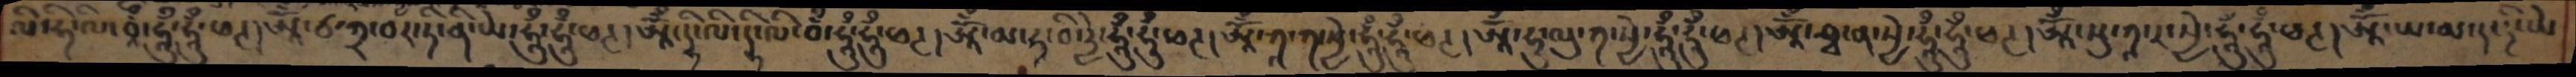ལི་ཧི་ལི་བཱྃ་ཧཱུྃ་ཧཱུྃ་ཕཊ། ཨཱོཾ་ཙ་ཀྲ་བར་ཏི་ནི་ཡེ་ཧཱུྃ་ཧཱུྃ་ཕཊ།ཨཱོཾ་དྷི་ལི་དྷི་ལི་བྃ་ཧཱུྃ་ཧཱུྃ་ཕཊ།ཨཱོྃ་མ་ཧཱ་བི་རྱེ་ཧཱུྃ་ཧཱུྃ་ཕཊ།ཨཱོྃ་ཀཱ་ཀ་སྱེ་ཧཱུྃ་ཧཱུྃ་ཕཊ། ཨཱོཾ་ཧུ་ལུ་ཀ་སྱེ་ཧཱུྃ་ཧཱུྃ་ཕཊ།ཨཱོཾ་ཤྭ་ན་སྱེ་ཧཱུྃ་ཧཱུྃ་ཕཊ།ཨཱོཾ་སུ་ཀཱ་ར་སྱེ་ཧཱུྃ་ཧཱུྃ་ཕཊ།ཨཱོྃ་ཡ་མ་ད་ཌི་ཡེ
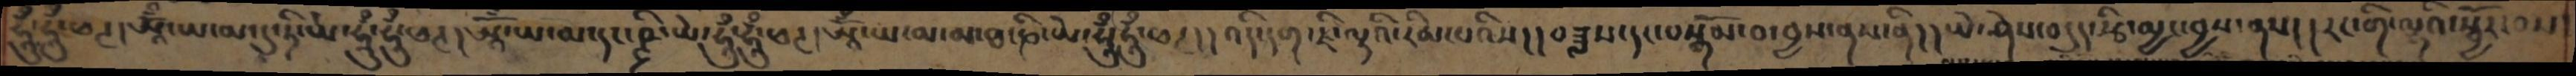ཧཱུྃ་ཧཱུྃ་ཕཊ།ཨཱོྃ་ཡ་མ་དུ་ཏི་ཡེ་ཧཱུྃ་ཧཱུྃ་ཕཊ།ཨཱོྃ་ཡ་མ་དང་ཥྚྲི་ཡེ་ཧཱུྃ་ཧཱུཾ་ཕཊ།ཨཱོྃ་ཡ་མ་མ་ཐ་ཎི་ཡེ་ཧཱུྃ་ཧཱུྃ་ཕཊ།།འདི་དག་ཇི་ལྟའི་རིམ་པའིས།།བཟླས་དང་བསྒོམ་བ་བྱས་ནས་ནི།།ཡེ་ཤེས་བདུད་རྩི་མྱང་བྱས་ནས།རང་གི་ལྷའི་སྦྱོར་བས་
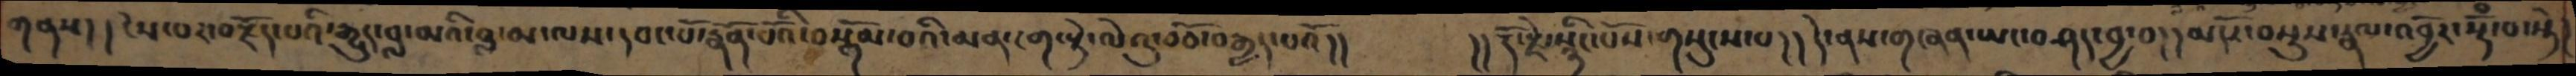གནས། ངེས་པར་བརྗོད་པའི་རྒྱུད་བླ་མའི་བླ་མ་ལས་དབང་པོ་རྣོན་པོའི་བསྒོམ་བའི་མན་ངག་སྟེ་ལེའུ་བཅོ་བརྒྱད་པའོ།།       །། རྡོ་རྗེ་སྙིང་པོས་གསུངས་པ་།། དེ་ནས་གཞན་ཡང་བཤད་བྱ་བ།།མདོར་བསྡུས་རྣམ་འབྱོར་སྡོཾ་བ་སྟེ
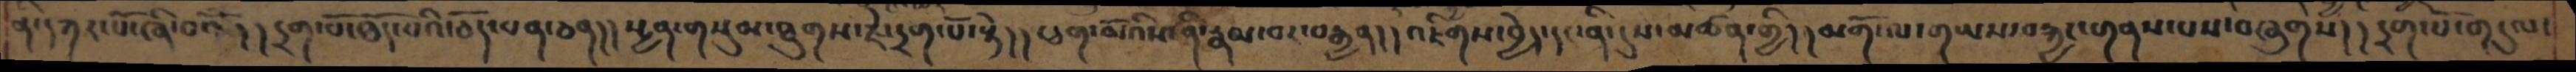ནི་དཀར་པོ་ཞི་བའོ། །དྲག་པོ་ཐོད་པའི་ཅོད་པན་ཅན། ། སྤྱན་གསུམ་ཐུགས་རྗེ་དྲག་པོ་སྟེ། །ཕག་མོའིས་ནི་རྣམ་པར་བརྒྱན། །འཇིགས་བྱེད་དང་ནི་དུས་མཚན་གྱི། །མགོ་ལ་གཡས་བརྐྱང་གནས་པས་བཞུགས། །དྲག་པོ་གདུལ་
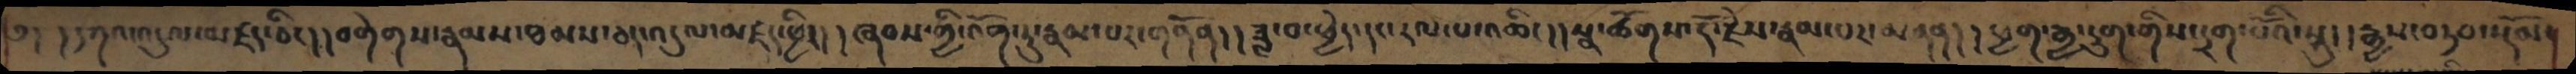༅། །དཀའ་འདུལ་མཛད་ཅིང།། བགེགས་རྣམས་ཐམས་ཅད་འདུལ་མཛད་ཕྱིར། །ཞབས་ཀྱི་འགོ་རུ་རྣམ་པར་གནོན། །ཟླ་བ་ཕྱེད་དང་རལ་པ་འཆིང། །སྣ་ཚོགས་རྡོ་རྗེས་རྣམ་པར་མནན། །ཕྱག་རྒྱ་དྲུག་གིས་དྲག་པོའི་སྐུ། །རྒྱས་བཏབ་རོལ་
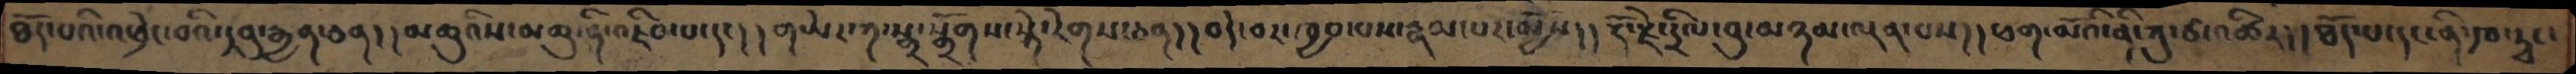ཐོད་པའི་འཕྲེང་བའི་དབུ་རྒྱན་ཅན། །མཆུའིས་མཆུ་ནི་འཇིབ་པ་དང། །གཡེར་ཀ་སྒྲ་སྒྲོགས་སྟེ་རེགས་ཅན། །བདེ་བར་ཁྱབ་པས་རྣམ་པར་མྱོས། །རྡོ་རྗེ་དྲིལ་བུ་མཉམ་ལྡན་པས། །ཕག་མོའི་ནི་ཀུ་ཙ་འཚིར། །ཐོད་པ་དང་ནི་ཁ་ཊྭང་
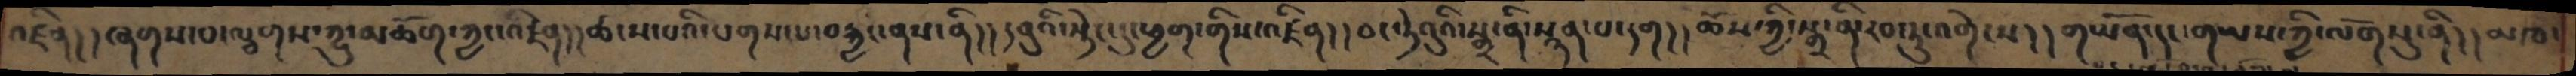འཛིན། །ཞགས་པ་ལྕགས་ཀྱུ་མཆོག་ཀྱང་འཛིན། །ཚངས་པའི་པགས་པ་བརྐྱང་ནས་ནི། །དབུའི་སྟེང་དུ་ཕྱག་གིས་འཛིན། །དབང་ཏེའུའི་སྒྲ་ནི་སྙན་པ་དག། །ཆོས་ཀྱི་སྒྲ་ནི་རབ་ཏུ་འགེངས། །གཡོན་དང་གཡས་ཀྱི་ལོག་དུ་ནི། །མཁ
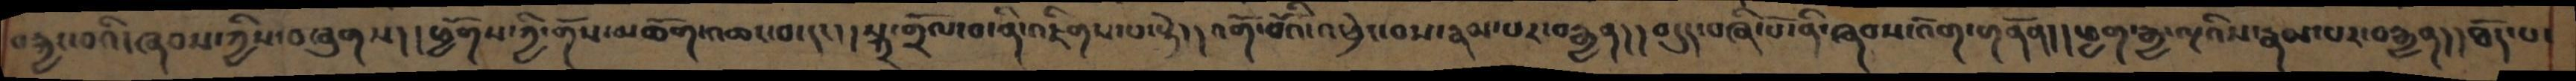བརྐྱང་བའི་ཞབས་ཀྱིས་བཞུགས།། ཕྱོགས་ཀྱི་གོས་མཆོག་འཆང་བ་དང་། སྐྲ་གྲོལ་བ་ནི་འཇིགས་པ་སྟེ་། །འགོ་བོའི་འཕྲེང་བས་རྣམ་པར་བརྒྱན། །བདུད་བཞི་པོ་ནི་ཞབས་འོག་གནོན། །ཕྱག་རྒྱ་ལྔའིས་རྣམ་པར་བརྒྱན། །ཐོད་པ་
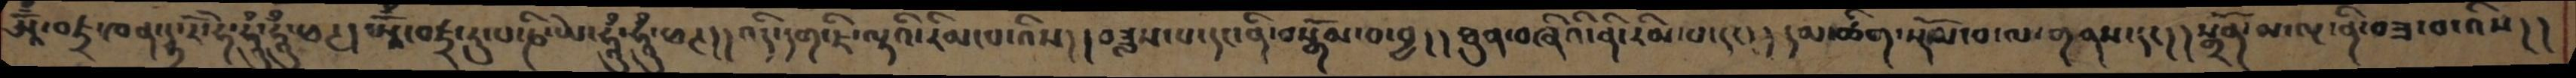ཨཱོྃ་བཛྲ་ཁན་དྷ་རོ་ཧེ་ཧཱུྃ་ཧཱུྃ་ཕཊ། ཨཱོྃ་བཛྲ་རུ་པ་ཎི་ཡེ་ཧཱུྃ་ཧཱུྃ་ཕཊ། །འདི་དག་ཇི་ལྟའི་རིམ་པ་འིས། །བཟླས་པ་དང་ནི་བསྒོམ་བ་བྱ། །ཐུན་བཞིའི་ནི་རིམ་པ་དང། །དམ་ཚིག་སྡོམ་བ་ལ་གནས་དང། །སྒྲོན་མ་ལྔ་ནི་བཟ་བ་འིས། །
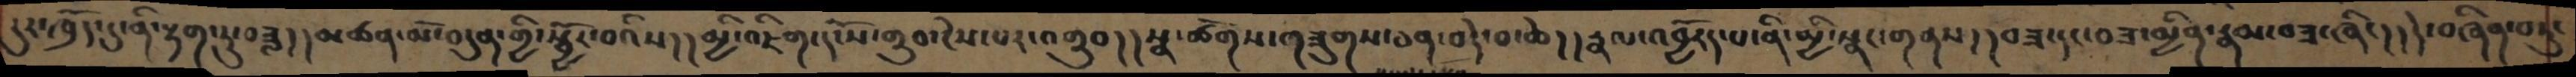དུར་ཁྲོད་དུ་ནི་རྟག་ཏུ་བཟླ། །མཚན་མོ་བདུན་གྱི་སྦྱོར་བའིས། །མྱི་འཇིག་དངསོ་གྲུབ་ངེས་པར་འགྲུབ། །སྣ་ཚོགས་གཟུགས་ཅན་བདེ་བ་ཆེ། །རྣལ་འབྱོརད་པ་ནི་མྱི་སྣང་གནས། །བཟ་དང་བཟ་མྱིན་རྣམ་བཟ་ཞིང། །དེ་བཞིན་བཏུང
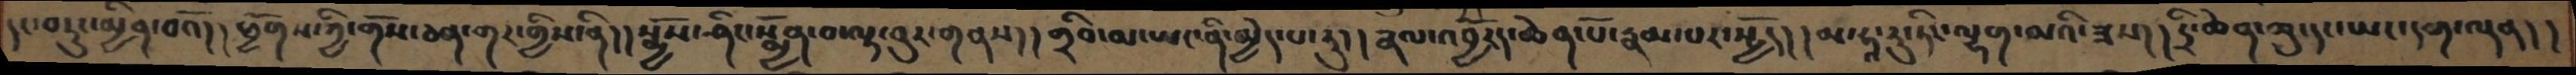དང་བཏུང་མྱིན་བའོ། །ཕྱོགས་ཀྱི་གོས་ཅན་གར་གྱིས་ནི། །སྨྱོས་ཤིང་སྨྱོན་བ་ལྟ་བུར་གནས། །གྲིབ་མ་ཡང་ནི་མྱེད་པ་རུ། །རྣལ་འབྱོར་ཆེན་པོ་རྣམ་པར་སྤྱོད། །མ་ཧཱ་རུ་ཏིང་ལྷག་མའི་ཟས། །དྲི་ཆེན་ཆུ་དང་ཡང་དག་ལྡན།།
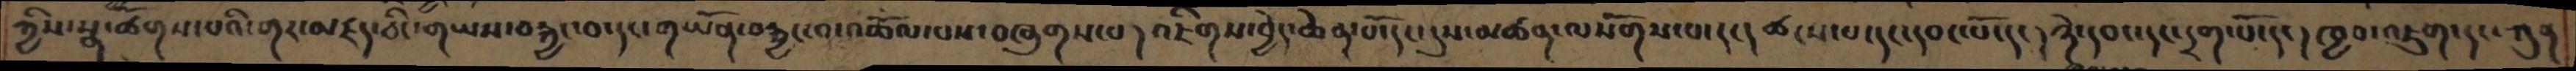ཀྱིས་སྣ་ཚོགས་པའི་གར་མཛད་ཅིང་གཡས་བརྐྱང་བ་དང་གཡོན་བརྐྱང་བ་འཆོམ་པས་བཞུགས་པ། འཇིགས་བྱེད་ཆེན་པོ་དང་དུས་མཚན་ལསོགས་པ་དང། ཚངས་པ་དང་དབང་པོ་དང། ཉེ་དབང་དང་དྲག་པོ་དང། ཁྱབ་འཇུག་དང་ཀུན
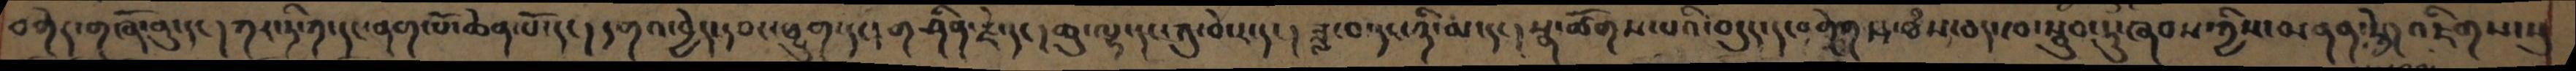བགེར་གཞོ་ནུ་དང། ཀར་ཏི་ཀ་དང་ནག་པོ་ཆེན་པོ་དང། དགའ་བྱེད་དབང་ཕྱུག་དང། གཤིན་རྗེ་དང། ཆུ་ལྷ་དང་ཀུ་བེ་ར་དང། ཟླ་བ་དང་ཉི་མ་དང། སྣ་ཚོགས་པའི་བདུད་དང་བགེགས་ཐཾས་ཅད་ཁ་སྦུབ་ཏུ་ཞབས་ཀྱིས་མནན་སྟེ། འཇིགས་སུ
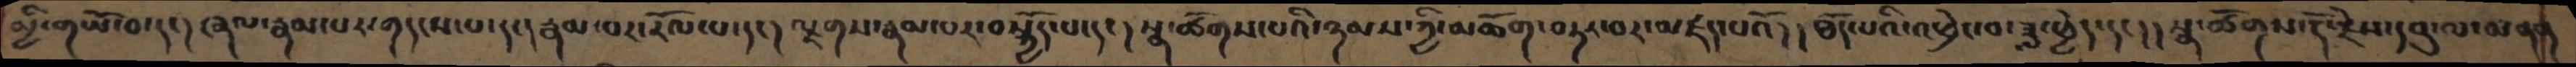མྱི་གཡོ་བ་དང། ཞལ་རྣམ་པར་གདངས་པ་དང། རྣམ་པར་རོལ་པ་དང། ལྗགས་རྣམ་པར་བསྐྱོད་པ་དང། སྣ་ཚོགས་པའི་ཉམས་ཀྱི་མཆོག་བཏང་བར་མཛད་པའོ།།ཐོད་པའི་འཕྲེང་བ་ཟླ་ཕྱེད་དང།།སྣ་ཚོགས་རྡོ་རྗེས་དབུ་ལ་མནན
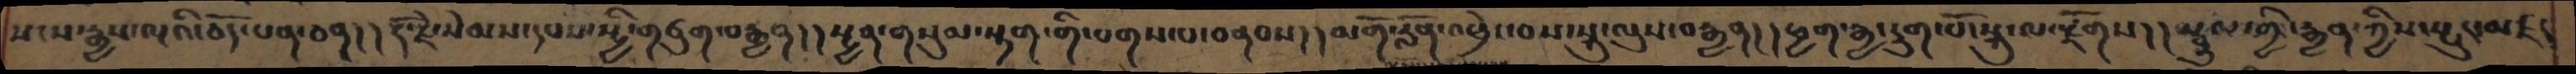སངས་རྒྱས་ལྔའི་ཅོད་པན་ཅན།།རྡོ་རྗེ་སེམས་དཔས་སྤྱི་གཙུག་བརྒྱན།།སྤྱན་གསུམ་སྟག་གི་པགས་པ་བནབས།།མགོ་རློན་འཕྲེང་བས་སྐུ་ལུས་བརྒྱན།།ཕྱག་རྒྱ་དྲུག་པོ་སྐུ་ལ་སྫོགས།།སྦྲུལ་གྱི་རྒྱན་ཀྱིས་སྤུད་མཛད
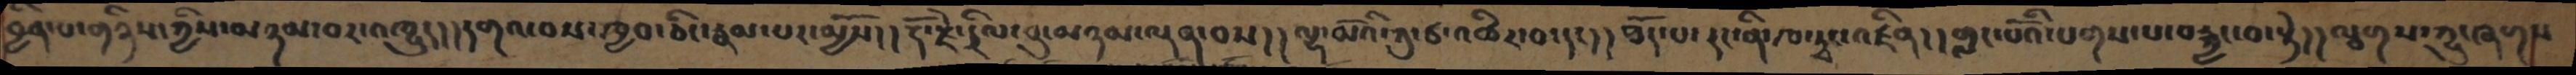བྱིན་པ་གཉིས་ཀྱིས་མཉམ་བར་འཁྱུད།།དགལ་བས་ཁྱབ་ཅིང་རྣམ་པར་མྱོས།།རྡོ་རྗེ་དྲིལ་བུ་མཉམ་ལྡན་བས།། ལྷ་མོའི་ཀུ་ཙ་འཚིར་བ་དང།།ཐོད་པ་དང་ནི་ཁ་ཊྭང་འཛིན།།གླང་པོའི་པགས་པ་བརྐྱང་བ་སྟེ།།ལྕགས་ཀྱུ་ཞགས
